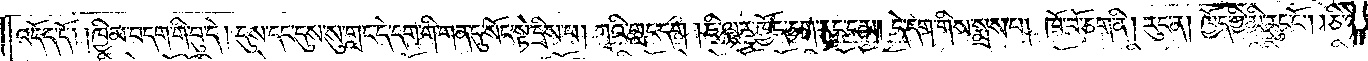འདོད་དོ། །ཁྱིམ་བདག་གི་བུ་དེ། དུས་དང་དུས་སུ་གླང་དེ་དག་གི་གན་དུ་སོང་སྟེ་དྲིས་པ། ཀྭའི་གླང་དག །ཇི་ལྟར་ཁྱོད་ཅག་རུང་ངམ། དེ་དག་གིས་སྨྲས་པ། ཁོ་བོ་ཅག་ནི། རུང་ན། ཁྱོད་ཀྱི་མི་རུང་ངོ༌། །ཅི་ཉེས་
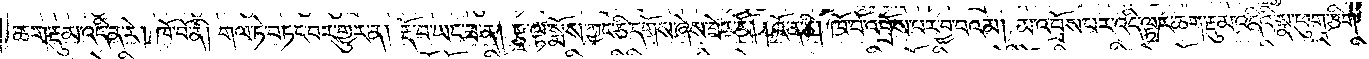ཆག་རྡུམ་འདི་ན་རེ། ཁོ་བོ་ནི། གལ་ཏེ་བཏང་བར་གྱུར་ན། རྡོ་བ་ཡང་ཟ་ན། རྩྭ་ལྟ་སྨོས་ཀྱང་ཅི་དགོས་ཞེས་ཟེར་རོ། །འོ་ན་ཅི། ཁོ་བོ་འབྲོས་པར་བྱ་བའམ། མ་འབྲོས་པར་འདི་ལྟར་ཆག་རྡུམ་འདིའི་སྣ་ཕུག་ཅིག་
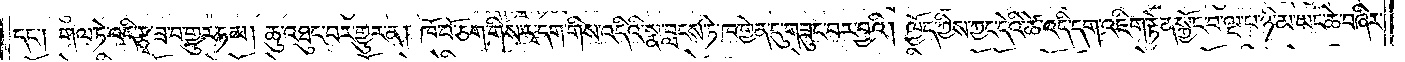དང༌། གལ་ཏེ་འདི་རྩྭ་ཟ་བ་གྱུར་ཏམ། ཆུ་འཐུང་བར་གྱུར་ན། ཁོ་བོ་ཅག་གིས་རྭ་དག་གིས་འདིའི་སྣ་བླངས་ཏེ་ཁ་གྱེན་དུ་གཟུང་བར་བྱའི། ཁྱོད་ཀྱིས་ཀྱང་དེའི་ཚེ་འདི་དག་འཇིག་རྟེན་སྐྱོང་བ་ལྔ་པ་ཉི་མ་ཡང་ཆེ་བཞིར་
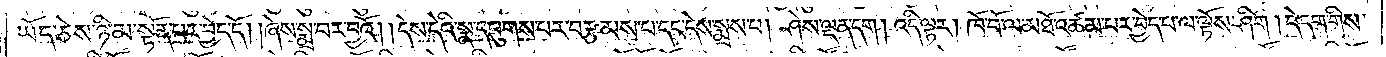ཡོད་ཅེས་ཉི་མ་སྟོན་པར་བྱེད་དོ། །ཞེས་སྨྲ་བར་བྱའོ། །དེས་དེའི་སྣ་དབུགས་པར་བརྩམས་པ་དང་དེས་སྨྲས་པ། ཤེས་ལྡན་དག། འདི་ལྟར། ཁོ་བོ་ལ་མཐོ་འཚམས་པར་བྱེད་པ་ལ་ལྟོས་ཤིག །དེ་དག་གིས་
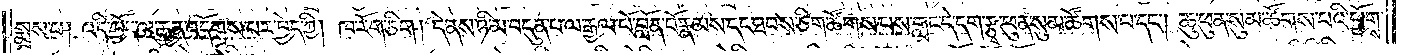སྨྲས་པ། འདི་ཁྱོད་ལ་རྒྱན་འདོགས་པར་བྱེད་ཀྱི། ཁ་རོག་ཅིག། དེ་ནས་ཉི་མ་བདུན་པ་ལ་རྒྱལ་པོ་བློན་པོ་རྣམས་དང་ཐབས་ཅིག་ཚོགས་པས་གླང་དེ་དག་རྩྭ་ཕུན་སུམ་ཚོགས་པ་དང༌། ཆུ་ཕུན་སུམ་ཚོགས་པའི་ཕྱོགས་
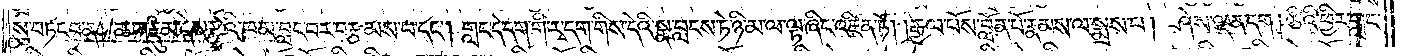སུ་བཏང་བ་ན། ཆག་རྡུམ་དེས་རྩྭའི་ཁམ་བླང་བར་བརྩམས་པ་དང༌། གླང་དེ་དག་གི་རྭ་དག་གིས་དེའི་སྣ་བླངས་ཏེ་ཉི་མ་ལ་ལྟ་ཞིང་འཛིན་ཏོ། །རྒྱལ་པོས་བློན་པོ་རྣམས་ལ་སྨྲས་པ། ཤེས་ལྡན་དག། ཅིའི་ཕྱིར་གླང་
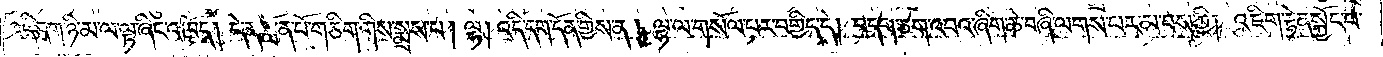འདི་དག་ཉི་མ་ལ་ལྟ་ཞིང་འཁོད། དེ་ན་བློན་པོ་གཅིག་གིས་སྨྲས་པ། ལྷ། འདི་དག་དོན་གྱིས་ན། ལྷ་ལ་གསོལ་བར་བགྱིད་དེ། བདག་ཅག་འབའ་ཞིག་ཆེ་བཞི་ལགས་པར་མ་བས་ཀྱི། འཇིག་རྟེན་སྐྱོང་བ་
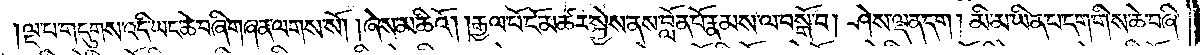ལྔ་པ་གདུགས་འདི་ཡང་ཆེ་བཞི་གཞན་ལགས་སོ། །ཞེས་མཆིའོ། །རྒྱལ་པོ་ངོ་མཚར་སྐྱེས་ནས་བློན་པོ་རྣམས་ལ་བསྒོ་བ། ཤེས་ལྡན་དག། མི་མ་ཡིན་པ་དག་གིས་ཆེ་བཞི་
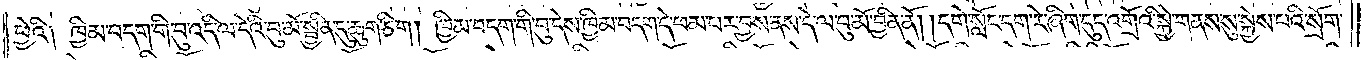ཕྱེའི༑ ཁྱིམ་བདག་གི་བུ་འདི་ལ་དེའི་བུ་མོ་སྦྱིན་དུ་ཆུག་ཅིག། ཁྱིམ་བདག་གི་བུ་དེས་ཁྱིམ་བདག་དེ་ཕམ་པར་བྱས་ནས་དེ་ལ་བུ་མོ་བྱིན་ནོ། །དགེ་སློང་དག་རེ་ཞིག་དུད་འགྲོའི་སྐྱེ་གནས་སུ་སྐྱེས་པའི་སྲོག་
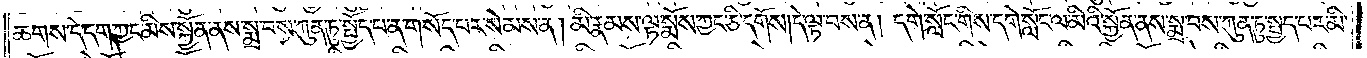ཆགས་དེ་དག་ཀྱང་མིས་སྐྱོན་ནས་སྨྲ་བས་ཀུན་ཏུ་སྤྱོད་པ་ན་གསོད་པར་སེམས་ན། མི་རྣམས་ལྟ་སྨོས་ཀྱང་ཅི་དགོས། དེ་ལྟ་བས་ན། དགེ་སློང་གིས་དགེ་སློང་ལ་མིའི་སྐྱོན་ནས་སྨྲ་བས་ཀུན་ཏུ་སྤྱད་པར་མི་
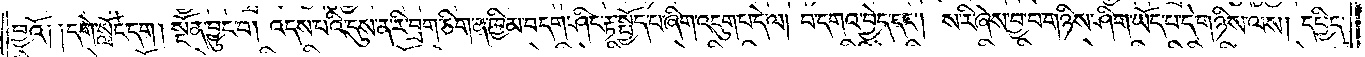བྱའོ༑ ༑དགེ་སློང་དག། སྔོན་བྱུང་བ། འདས་པའི་དུས་ན་རི་བྲག་ཅིག་ན་ཁྱིམ་བདག་ཤིང་རྟ་སྤྱོད་པ་ཞིག་འདུག་པ་དེ་ལ། བ་དགའ་བྱེད་དང༌། ས་རི་ཞེས་བྱ་བ་གཉིས་ཤིག་ཡོད་པ་དེ་གཉིས་ལས། དཔྱིད་
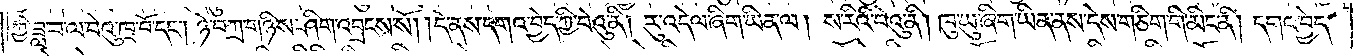ཀྱི་ཟླ་བ་ལ་བེའུ་ཁྲ་བོ་དང༌། ཉེ་བཀྲ་གཉིས་ཤིག་འབྲངས་སོ། །དེ་ནས་དགའ་བྱེད་ཀྱི་བེའུ་ནི། རུ་འདེལ་ཞིག་ཡིན་པ། ས་རིའི་བེའུ་ནི། ཁུ་ཡུ་ཞིག་ཡིན་ནས་དེས་གཅིག་གི་མིང་ནི། དགའ་བྱེད་
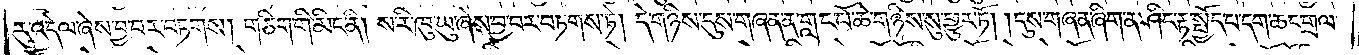རུ་འདེལ་ཞེས་བྱ་བར་བཏགས། གཅིག་གི་མིང་ནི། ས་རི་ཁུ་ཡུ་ཞེས་བྱ་བར་བཏགས་ཏེ། དེ་གཉིས་དུས་གཞན་ན་གླང་པོ་ཆེ་གཉིས་སུ་གྱུར་ཏོ། །དུས་གཞན་ཞིག་ན་ཤིང་རྟ་སྤྱོད་པ་དག་ཆང་གྲལ་
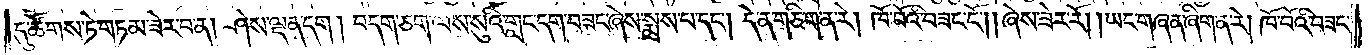དུ་ཚོགས་ཏེ་གཏམ་ཟེར་བ་ན། ཤེས་ལྡན་དག། བདག་ཅག་ལས་སུའི་གླང་དག་བཟང་ཞེས་སྨྲས་པ་དག། དེ་ན་གཅིག་ན་རེ། ཁོ་བོའི་བཟང་ངོ༌། །ཞེས་ཟེར་རོ། །ཡང་གཞན་ཞིག་ན་རེ། ཁོ་བོའི་བཟང་
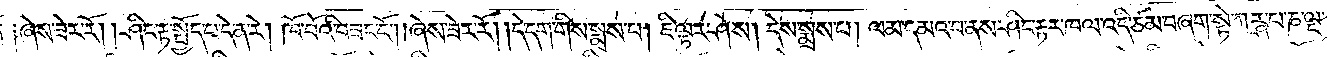༑ ཞེས་ཟེར་རོ། །ཤིང་རྟ་སྤྱོད་པ་དེ་ན་རེ། ཁོ་བོའི་བཟང་ངོ༌། །ཞེས་ཟེར་རོ། །དེ་དག་གིས་སྨྲས་པ། ཇི་ལྟར་ཤེས། དེས་སྨྲས་པ། ལམ་དམའ་བ་ནས་ཤིང་རྟར་ཁལ་འདི་ཙམ་བཞག་སྟེ་ཀཪྴ་པ་ཎ་ལྔ་
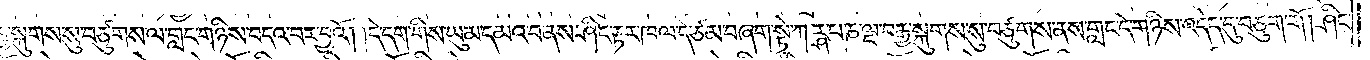སྐུགས་སུ་བཙུགས་ལ་གླང་གཉིས་བདའ་བར་བྱའོ། །དེ་དག་གིས་ཡུམ་དམའ་བ་ནས་ཤིང་རྟར་ཁལ་དེ་ཙམ་བཞག་སྟེ་ཀརྴ་པ་ཎ་ལྔ་བརྒྱ་སྐུགས་སུ་བཙུགས་ནས་གླང་དེ་གཉིས་འདེད་དུ་བཅུག་གོ། ཤིང་
